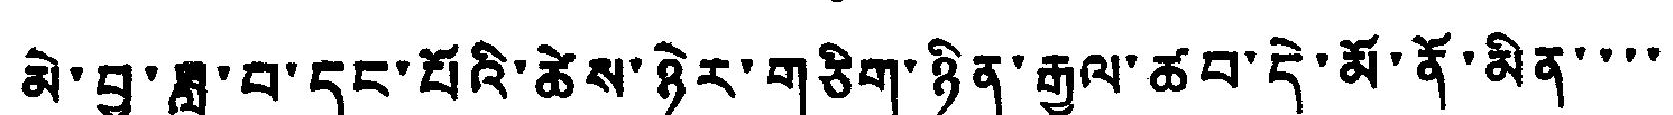མེ་བྱ་ཟླ་བ་དང་པོའི་ཚེས་ཉེར་གཅིག་ཉིན་རྒྱལ་ཚབ་དེ་མོ་ནོ་མིན་་་་
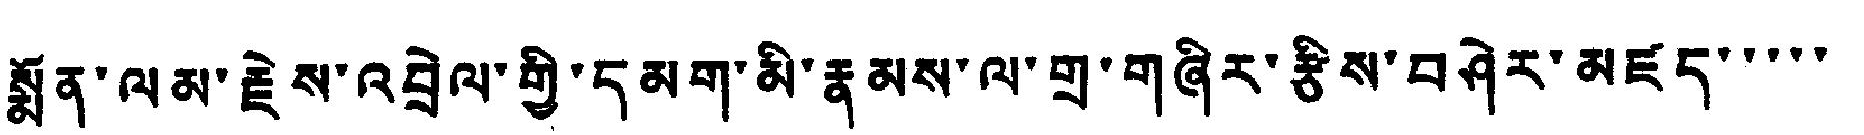སྨོན་ལམ་རྗེས་འབྲེལ་གྱི་དམག་མི་རྣམས་ལ་གྲ་གཞིར་རྩིས་བཤེར་མཛད་་་་་
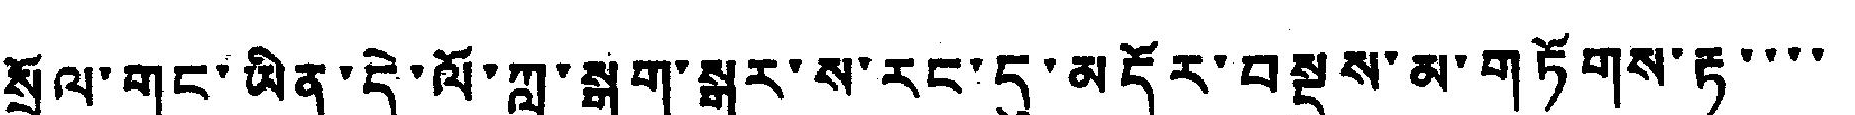སྲོལ་གང་ཡིན་དེ་ལོ་ཀླུ་སྒུག་སྒར་ས་རང་དུ་མདོར་བསྡུས་མ་གཏོགས་རྟ་་་་
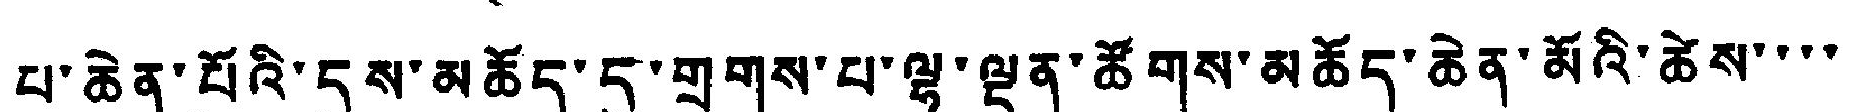པ་ཆེན་པོའི་དུས་མཆོད་དུ་གྲགས་པ་ལྷ་ལྡན་ཚོགས་མཆོད་ཆེན་མོའི་ཚེས་་་་
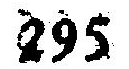295
